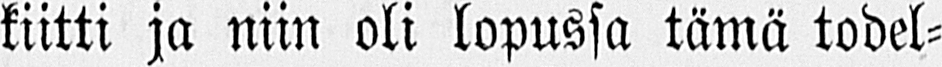kiitti ja niin oli lopussa tämä todel-
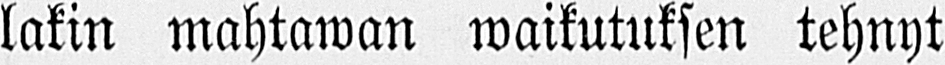lakin mahtawan waikutuksen tehnyt
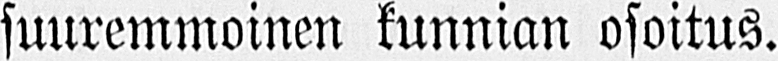suuremmoinen kunnian osoitus.
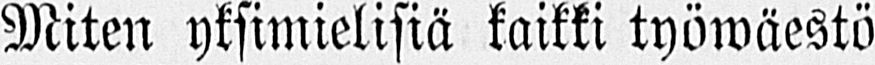Miten yksimielisiä kaikki työwäestö
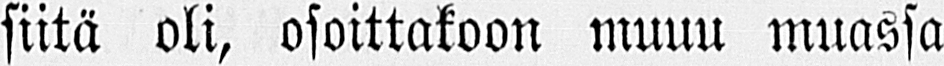siitä oli, osoittakoon muuu muassa
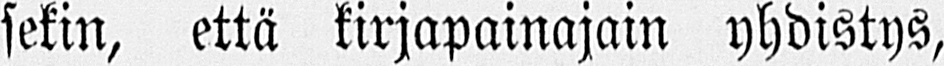sekin, että kirjapainajain yhdistys,
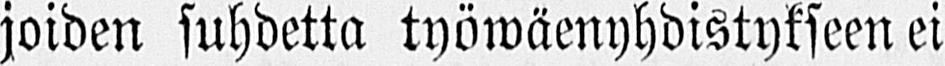joiden suhdetta työwäenyhdistykseen ei
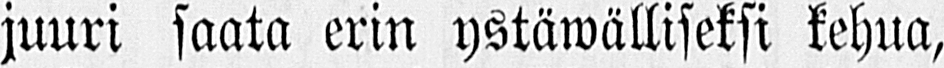juuri saata erin ystäwälliseksi kehua,
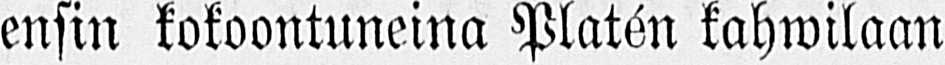ensin kokoontuneina Platén kahwilaan
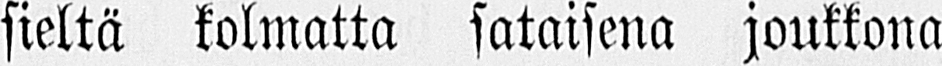sieltä kolmatta sotaisena joukkona
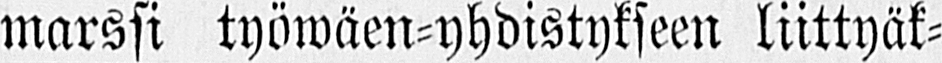marssi työwäen-yhdistykseen liittyäk-
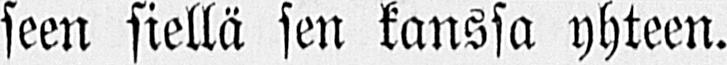seen siellä sen kanssa yhteen.
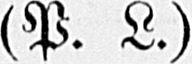(P. L.)
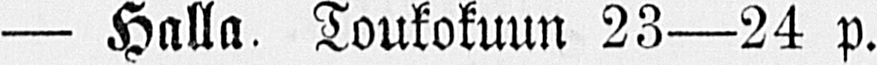— Halla. Toukokuun 23—24 p.
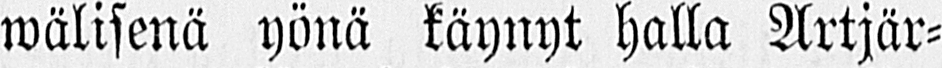wälisenä yönä käynyt halla Artjär-
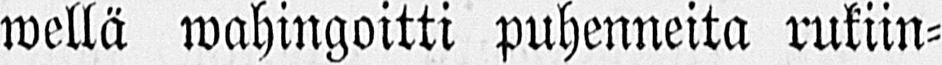wellä wahingoitti puhenneita rukiin-
